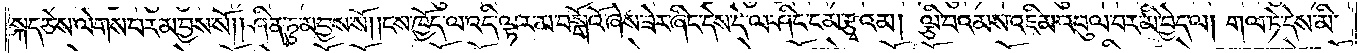སྐད་ཅེས་ལེགས་པར་མ་བྱས་སོ། །ཤིན་ཏུ་མ་བྱས་སོ། །ངས་ཁྱོད་ལ་འདི་ལྟར་མ་བསྒོའོ་ཞེས་ཟེར་ཞིང་དེས་དེ་ལ་ཤིང་ངམ་རྩྭའམ། ལྕི་བའམ་ས་འཇིམ་འབུལ་བར་མི་བྱེད་ལ། གལ་ཏེ་དེས་མི་
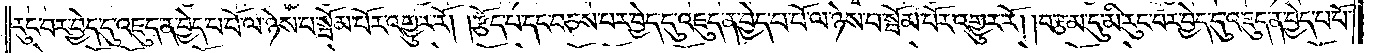རུང་བར་བྱེད་དུ་འཇུད་ན་བྱེད་པ་པོ་ལ་ཉེས་པ་སྦོམ་པོར་འགྱུར་རོ། །རྩོད་པ་དང་བཅས་པར་བྱེད་དུ་འཇུད་ན་བྱེད་པ་པོ་ལ་ཉེས་པ་སྦོམ་པོར་འགྱུར་རོ། །བརྩམ་དུ་མི་རུང་བར་བྱེད་དུ་འཇུད་ན་བྱེད་པ་པོ་
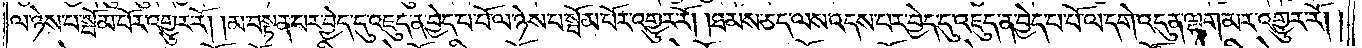ལ་ཉེས་པ་སྦོམ་པོར་འགྱུར་རོ། །མ་བསྟན་པར་བྱེད་དུ་འཇུད་ན་བྱེད་པ་པོ་ལ་ཉེས་པ་སྦོམ་པོར་འགྱུར་རོ། །ཐམས་ཅད་ལས་འདས་པར་བྱེད་དུ་འཇུད་ན་བྱེད་པ་པོ་ལ་དགེ་འདུན་ལྷག་མར་འགྱུར་རོ། །
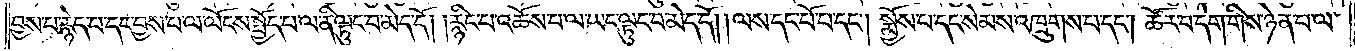བྱས་པ་རྙེད་པ་དང་བྱས་པ་ལ་ལོངས་སྤྱོད་པ་ལ་ནི་ལྟུང་བ་མེད་དོ། །རྙིང་པ་འཆོས་པ་ལ་ཡང་ལྟུང་བ་མེད་དོ། །ལས་དང་པོ་པ་དང༌། སྨྱོས་པ་དང་སེམས་འཁྲུགས་པ་དང༌། ཚོར་བ་དག་གིས་ཉེན་པ་ལ་
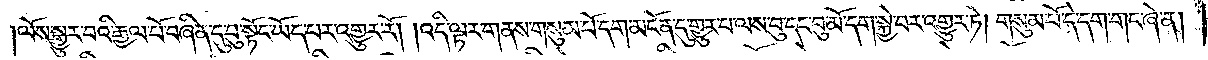།ལོས་སྒྱུར་བའི་རྒྱལ་པོ་བཞིན་དུ་བུ་སྟོང་ཡོད་པར་འགྱུར་རོ། །འདི་ལྟར་གནས་གསུམ་པོ་དག་མངོན་དུ་གྱུར་པ་ལས་བུ་དང་བུ་མོ་དག་སྐྱེ་བར་འགྱུར་ཏེ། གསུམ་པོ་དེ་དག་གང་ཞེ་ན།
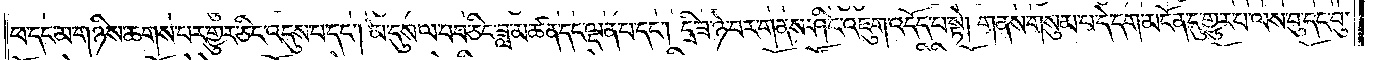ཕ་དང་མ་གཉིས་ཆགས་པར་གྱུར་ཅིང་འདུས་པ་དང༌། མ་དུས་ལ་བབ་ཅིང་ཟླ་མཚན་དང་ལྡན་པ་དང༌། དྲི་ཟ་ཉེ་བར་གནས་ཤིང་འཇུག་འདོད་པ་སྟེ། གནས་གསུམ་པ་དེ་དག་མངོན་དུ་གྱུར་པ་ལས་བུ་དང་བུ་
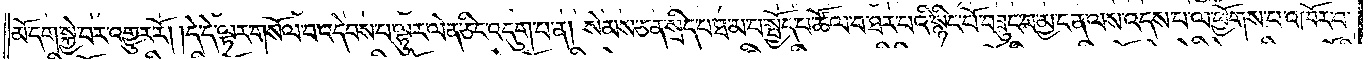མོ་དག་སྐྱེ་བར་འགྱུར་རོ། །དེ་དེ་ལྟར་གསོལ་བ་འདེབས་པ་ལྷུར་ལེན་ཅིང་འདུག་པ་ན། སེམས་ཅན་སྲིད་པ་ཐ་མ་པ་སྤྱོད་པ་ཚོལ་བ་ཐར་པའི་སྙིང་པོ་བཟུང་བ་མྱ་ངན་ལས་འདས་པ་ལ་ཕྱོགས་པ་འཁོར་བ་
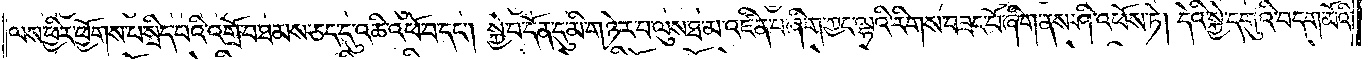ལས་ཕྱིར་ཕྱོགས་པ་སྲིད་པའི་འགྲོ་བ་ཐམས་ཅད་དུ་འཆི་འཕོ་བ་དང༌། སྐྱེ་བ་དོན་དུ་མི་གཉེར་བ་ལུས་ཐ་མ་འཛིན་པ་ཞིག་ཀྱང་ལྷའི་རིགས་བཟང་པོ་ཞིག་ནས་ཤི་འཕོས་ཏེ། དེའི་སྐྱེ་དགུའི་བདག་མོའི་
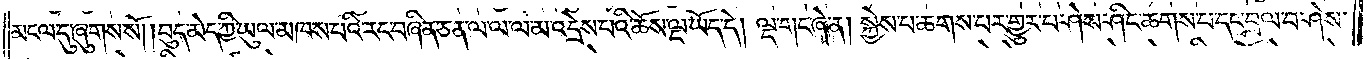མངལ་དུ་ཞུགས་སོ། །བུད་མེད་ཀྱི་ཡུལ་མཁས་པའི་རང་བཞིན་ཅན་ལ་ལ་ལ་མ་འདྲེས་པའི་ཆོས་ལྔ་ཡོད་དེ། ལྔ་གང་ཞེ་ན། སྐྱེས་པ་ཆགས་པར་གྱུར་པ་ཤེས་ཤིང་ཆགས་པ་དང་བྲལ་བ་ཤེས་
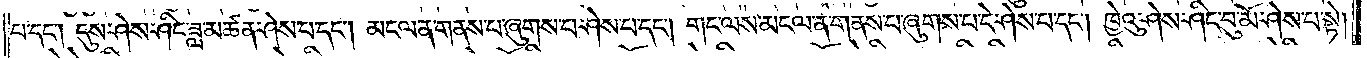པ་དང༌། དུས་ཤེས་ཤིང་ཟླ་མཚན་ཤེས་པ་དང༌། མངལ་ན་གནས་པ་ཞུགས་པ་ཤེས་པ་དང༌། གང་ལས་མངལ་ན་གནས་པ་ཞུགས་པ་དེ་ཤེས་པ་དང༌། ཁྱེའུ་ཤེས་ཤིང་བུ་མོ་ཤེས་པ་སྟེ།
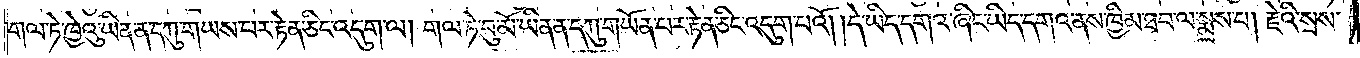གལ་ཏེ་ཁྱེའུ་ཡིན་ན་དཀུ་གཡས་པར་རྟེན་ཅིང་འདུག་ལ། གལ་ཏེ་བུ་མོ་ཡིན་ན་དཀུ་གཡོན་པར་རྟེན་ཅིང་འདུག་པའོ། །དེ་ཡིད་དགའ་ཞིང་ཡིད་དགའ་ནས་ཁྱིམ་ཐབ་ལ་སྨྲས་པ། རྗེའི་སྲས་
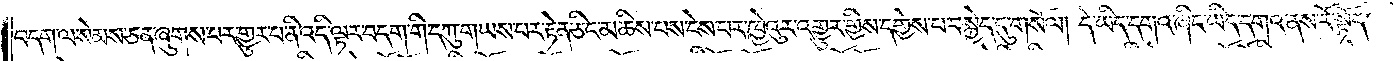བདག་ལ་སེམས་ཅན་ཞུགས་པར་གྱུར་པ་ནི་འདི་ལྟར་བདག་གི་དཀུ་གཡས་པར་རྟེན་ཅིང་མཆིས་པས་ངེས་པར་ཁྱེའུར་འགྱུར་གྱིས་དགྱེས་པ་བསྐྱེད་དུ་གསོལ། དེ་ཡིད་དགའ་ཞིང་ཡིད་དགའ་ནས་རོ་སྟོད་
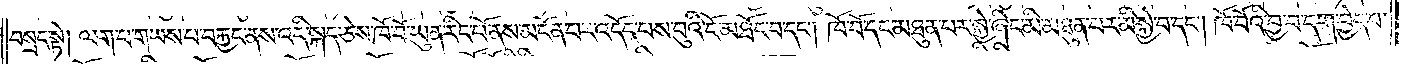བསྲང་སྟེ། ལག་པ་གཡས་པ་བརྐྱང་ནས་འདི་སྐད་ཅེས་ཁོ་བོ་ཡུན་རིང་པོ་ནས་མངོན་པར་འདོད་པས་བུའི་ངོ་མཐོང་བ་དང༌། ཁོ་བོ་དང་མཐུན་པར་སྐྱེ་ཞིང་མི་མཐུན་པར་མི་སྐྱེ་བ་དང༌། ཁོ་བོའི་བྱ་བ་དག་བྱེད་པ་
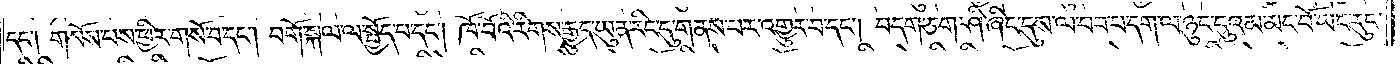དང༌། གསོས་པས་ཕྱིར་གསོ་བ་དང༌། བགོ་སྐལ་ལ་སྤྱོད་པ་དང༌། ཁོ་བོའི་རིགས་རྒྱུད་ཡུན་རིང་དུ་གནས་པར་འགྱུར་བ་དང༌། བདག་ཅག་ཤི་ཞིང་དུས་ལ་བབ་པ་དག་ལ་ཉུང་དུའམ་མང་པོ་ཡང་རུང་
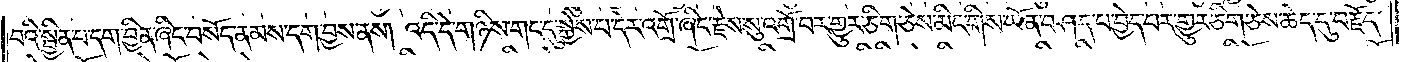བའི་སྦྱིན་པ་དག་བྱིན་ཞིང་བསོད་ནམས་དག་བྱས་ནས། འདི་དེ་གཉིས་གང་དུ་སྐྱེས་པ་དེར་འགྲོ་ཞིང་རྗེས་སུ་འགྲོ་བར་གྱུར་ཅིག་ཅེས་མིང་གིས་ཡོན་བཤད་པ་བྱེད་པར་གྱུར་ཅིག་ཅེས་ཆེད་དུ་བརྗོད་
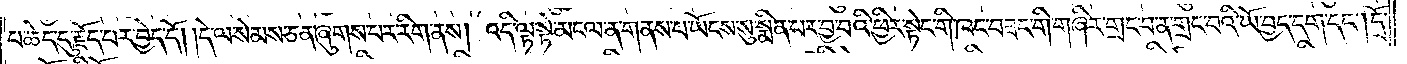པ་ཆེད་དུ་རྗོད་པར་བྱེད་དོ། །དེ་ལ་སེམས་ཅན་ཞུགས་པར་རིག་ནས། འདི་ལྟ་སྟེ་མངལ་ན་གནས་པ་ཡོངས་སུ་སྨིན་པར་བྱ་བའི་ཕྱིར་སྟེང་གི་ཁང་བཟང་གི་གཞིར་གྲང་བ་ན་གྲང་བའི་ཡོ་བྱད་དག་དང༌། དྲོ་
